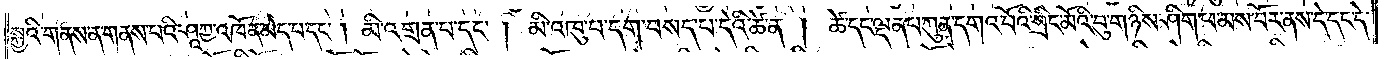སྐྱའི་གནས་ན་གནས་པའི་ཤཱཀྱ་འཁོན་མེད་པ་དང༌། མི་འགྲན་པ་དང༌། མི་འཁུ་པ་དག་བསད་པ་དེའི་ཚེ་ན། ཚེ་དང་ལྡན་པ་ཀུན་དགའ་པོའི་སྲིང་མོའི་བུ་གཉིས་ཤིག་ཕ་མས་བོར་ནས་དེ་དང་དེ་
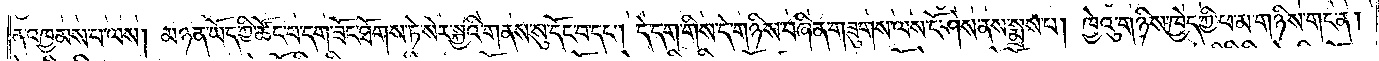ན་འཁྱམས་པ་ལས། མཉན་ཡོད་ཀྱི་ཚོང་བ་དག་ཟོང་ཐོགས་ཏེ་སེར་སྐྱའི་གནས་སུ་དོང་བ་དང༌། དེ་དག་གིས་དེ་གཉིས་བཞིན་གཟུགས་ལས་ངོ་ཤེས་ནས་སྨྲས་པ། ཁྱེའུ་གཉིས་ཁྱེད་ཀྱི་ཕ་མ་གཉིས་གང་ན།
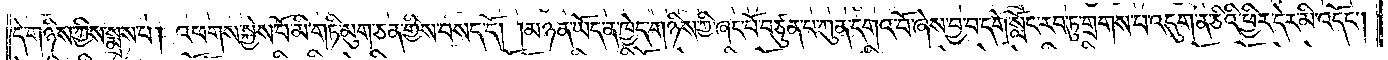དེ་གཉིས་ཀྱིས་སྨྲས་པ། འཕགས་སྐྱེས་པོ་མི་གཏི་མུག་ཅན་གྱིས་བསད་དོ། །མཉན་ཡོད་ན་ཁྱེད་གཉིས་ཀྱི་ཞང་པོ་བཙུན་པ་ཀུན་དགའ་བོ་ཞེས་བྱ་བ་དགེ་སློང་རབ་ཏུ་གྲགས་པ་འདུག་ན་ཅིའི་ཕྱིར་དེར་མི་འདོང༌།
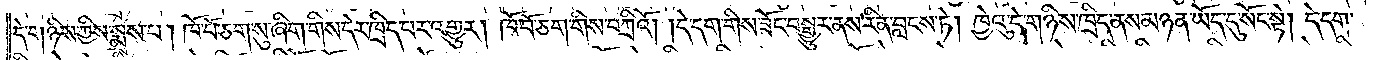དེ་གཉིས་ཀྱིས་སྨྲས་པ། ཁོ་བོ་ཅག་སུ་ཞིག་གིས་དེར་ཁྲིད་པར་འགྱུར། ཁོ་བོ་ཅག་གིས་བཀྲིའོ། །དེ་དག་གིས་ཟོང་བསྒྱུར་ནས་རིན་བླངས་ཏེ། ཁྱེའུ་དེ་གཉིས་ཁྲིད་ནས་མཉན་ཡོད་དུ་སོང་སྟེ། དེ་དག་
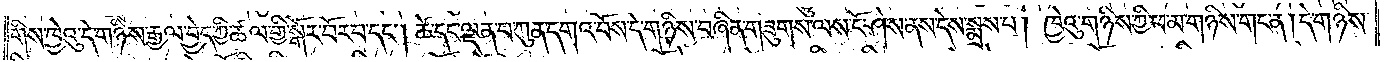གིས་ཁྱེའུ་དེ་གཉིས་རྒྱལ་བྱེད་ཀྱི་ཚལ་གྱི་སྒོར་བོར་བ་དང༌། ཚེ་དང་ལྡན་པ་ཀུན་དགའ་བོས་དེ་གཉིས་བཞིན་གཟུགས་ལས་ངོ་ཤེས་ནས་དེས་སྨྲས་པ། ཁྱེའུ་གཉིས་ཀྱི་ཕ་མ་གཉིས་གང་ན། དེ་གཉིས་
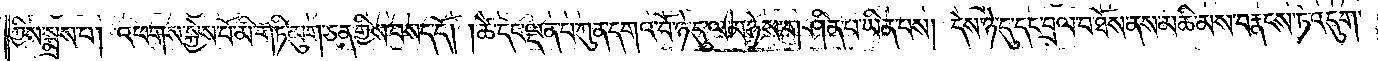ཀྱིས་སྨྲས་པ། འཕགས་སྐྱེས་པོ་མི་གཏི་མུག་ཅན་གྱིས་བསད་དོ། །ཚེ་དང་ལྡན་པ་ཀུན་དགའ་བོ་ཉེ་དུ་ལ་མཉེས་གཤིན་པ་ཡིན་པས། དེས་ཉེ་དུ་དང་བྲལ་བ་ཐོས་ནས་མཆི་མས་བརྣངས་ཏེ་འདུག་
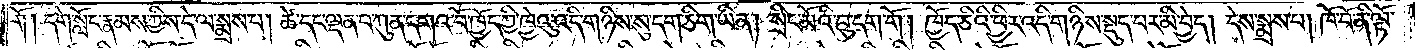གོ། དགེ་སློང་རྣམས་ཀྱིས་དེ་ལ་སྨྲས་པ། ཚེ་དང་ལྡན་པ་ཀུན་དགའ་བོ་ཁྱོད་ཀྱི་ཁྱེའུ་འདི་གཉིས་སུ་དག་ཅིག་ཡིན། སྲིང་མོའི་བུ་དག་གོ། ཁྱོད་ཅིའི་ཕྱིར་འདི་གཉིས་སྡུད་པར་མི་བྱེད། དེས་སྨྲས་པ། ཁོ་བོ་ནི་ལྟོ་
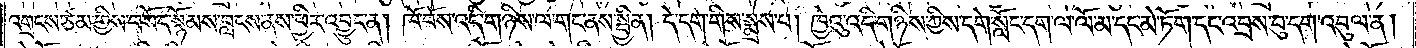འགྲངས་ཙམ་གྱིས་བསོད་སྙོམས་བླངས་ནས་ཕྱིར་འབྱུང་ན། ཁོ་བོས་འདི་གཉིས་ལ་གང་ནས་སྦྱིན། དེ་དག་གིས་སྨྲས་པ། ཁྱེའུ་འདི་གཉིས་ཀྱིས་དགེ་སློང་དག་ལ་ལོ་མ་དང་མེ་ཏོག་དང་འབྲས་བུ་དག་འབུལ་ན།
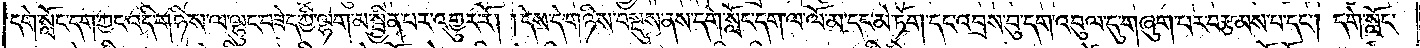དགེ་སློང་དག་ཀྱང་འདི་གཉིས་ལ་ལྷུང་བཟེད་ཀྱི་ལྷག་མ་སྦྱིན་པར་འགྱུར་རོ། །དེས་དེ་གཉིས་བསྡུས་ནས་དགེ་སློང་དག་ལ་ལོ་མ་དང་མེ་ཏོག་དང་འབྲས་བུ་དག་འབུལ་དུ་གཞུག་པར་བརྩམས་པ་དང༌། དགེ་སློང་
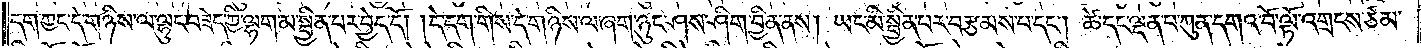དག་ཀྱང་ད་གཉིས་ལ་ལྷུང་བཟེད་ཀྱི་ལྷག་མ་སྦྱིན་པར་བྱེད་དོ། །དེ་དག་གིས་དེ་གཉིས་ལ་ཞག་ཉུང་ཤས་ཤིག་བྱིན་ནས། ཡང་མི་སྦྱིན་པར་བརྩམས་པ་དང༌། ཚེ་དང་ལྡན་པ་ཀུན་དགའ་བོ་ལྟོ་འགྲངས་ཙམ་
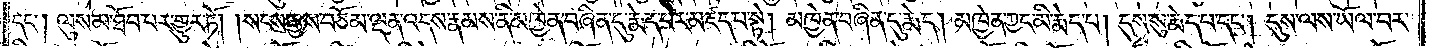དང༌། ལུས་མ་ཐོབ་པར་གྱུར་ཏོ། །སངས་རྒྱས་བཅོམ་ལྡན་འདས་རྣམས་ནི་མཁྱེན་བཞིན་དུ་རྨེད་པར་མཛད་པ་སྟེ། མཁྱེན་བཞིན་དུ་རྨེད། མཁྱེན་ཀྱང་མི་རྨེད་པ། དུས་སུ་རྨེད་པ་དང༌། དུས་ལས་ཡོལ་བར་
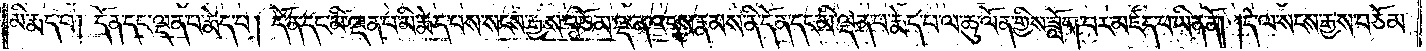མི་རྨད་པ། དོན་དང་ལྡན་པ་རྨེད་པ། དོན་དང་མི་ལྡན་པ་མི་རྨེད་པས་སངས་རྒྱས་བཅོམ་ལྡན་འདས་རྣམས་ནི་དོན་དང་མི་ལྡན་པ་རྨེད་པ་ལ་ཆུ་ལོན་གྱིས་ཟློག་པར་མཛད་པ་ཡིན་ནོ། །དེ་ལ་སངས་རྒྱས་བཅོམ་
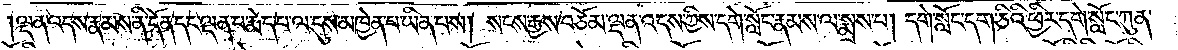།ལྡན་འདས་རྣམས་ནི་དོན་དང་ལྡན་པ་རྨེད་པ་ལ་དུས་མཁྱེན་པ་ཡིན་པས། སངས་རྒྱས་བཅོམ་ལྡན་འདས་ཀྱིས་དགེ་སློང་རྣམས་ལ་སྨྲས་པ། དགེ་སློང་དག་ཅིའི་ཕྱིར་དགེ་སློང་ཀུན་
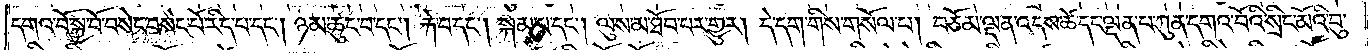དགའ་བོ་སྐྱ་བོ་བསེང་བསེང་པོ་རིད་པ་དང༌། ཉམ་ཆུང་བ་དང༌། རྐེ་བ་དང༌། སྐམ་པ་དང༌། ལུས་མ་ཐོབ་པར་གྱུར། དེ་དག་གིས་གསོལ་པ། བཅོམ་ལྡན་འདས་ཚེ་དང་ལྡན་པ་ཀུན་དགའ་བོའི་སྲིང་མོའི་བུ་
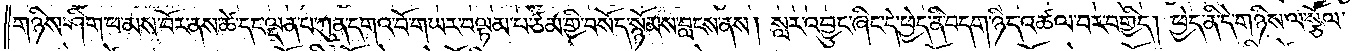གཉིས་ཤིག་ཕ་མས་བོར་ནས་ཚེ་དང་ལྡན་པ་ཀུན་དགའ་བོ་གཡར་བལྟམ་པ་ཙམ་གྱི་བསོད་སྙོམས་བླངས་ནས། སླར་འབྱུང་ཞིང་དེ་ཕྱེད་ནི་བདག་ཉིད་འཚལ་བར་བགྱིད། ཕྱེད་ནི་དེ་གཉིས་ལ་སྩོལ་
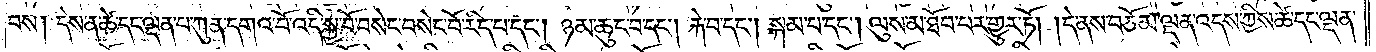བས། དེས་ན་ཚེ་དང་ལྡན་པ་ཀུན་དགའ་བོ་འདི་སྐྱ་བོ་བསེང་བསེང་བོ་རིད་པ་དང༌། ཉམ་ཆུང་བ་དང༌། རྐེ་བ་དང༌། སྐམ་པ་དང༌། ལུས་མ་ཐོབ་པར་གྱུར་ཏོ། །དེ་ནས་བཅོམ་ལྡན་འདས་ཀྱིས་ཚེ་དང་ལྡན་
